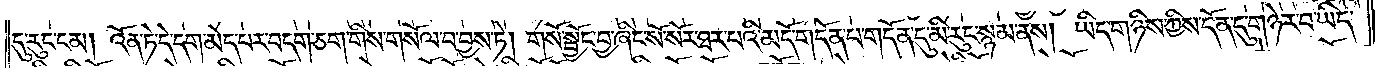དུ་རུང་ངམ། འོན་ཏེ་དེ་དག་མེད་པར་བདག་ཅག་གིས་གསོལ་བ་བྱས་ཏེ། གསོ་སྦྱོང་བྱ་ཞིང་སོ་སོར་ཐར་པའི་མདོ་གདོན་པ་གདོན་དུ་མི་རུང་སྙམ་ནས། ཡིད་གཉིས་ཀྱིས་དོན་དུ་གཉེར་བ་ཡིད་
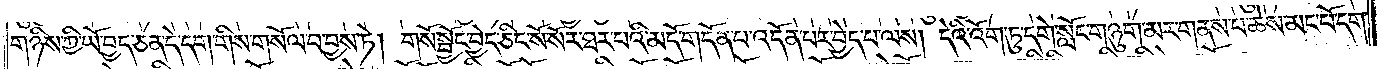གཉིས་ཀྱི་ཡོ་བྱད་ཅན་དེ་དག་གིས་གསོལ་བ་བྱས་ཏེ། གསོ་སྦྱོང་བྱེད་ཅིང་སོ་སོར་ཐར་པའི་མདོ་གདོན་པ་འདོན་པར་བྱེད་པ་ལས། དེའི་འོག་ཏུ་དགེ་སློང་གཉུག་མར་གནས་པ་ཆེས་མང་པོ་དག་
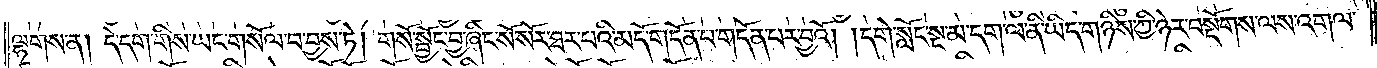ལྷགས་ན། དེ་དག་གིས་ཡང་གསོལ་བ་བྱས་ཏེ། གསོ་སྦྱོང་བྱ་ཞིང་སོ་སོར་ཐར་པའི་མདོ་གདོན་པ་གདོན་པར་བྱའོ། །དགེ་སློང་སྔ་མ་དག་ལ་ནི་ཡིད་གཉིས་ཀྱི་ཉེར་བསྔོགས་ལས་འགལ་
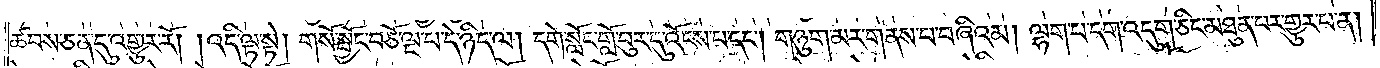ཚབས་ཅན་དུ་འགྱུར་རོ། །འདི་ལྟ་སྟེ། གསོ་སྦྱོང་བཅོ་ལྔ་པ་དེ་ཉིད་ལ། དགེ་སློང་གློ་བུར་དུ་འོངས་པ་དང༌། གཉུག་མར་གནས་པ་བཞིའམ། ལྷག་པ་དག་འདུག་ཅིང་མཐུན་པར་གྱུར་པ་ན།
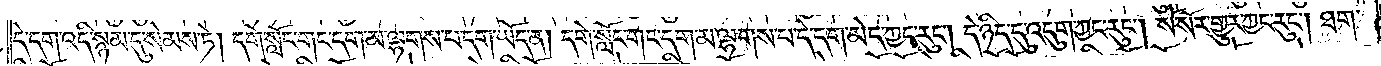དེ་དག་འདི་སྙམ་དུ་སེམས་ཏེ། དགེ་སློང་གང་དག་མ་ལྷགས་པ་དག་ཡོད་ན། དགེ་སློང་གང་དག་མ་ལྷགས་པ་དེ་དག་མེད་ཀྱང་རུང༌། དེ་ཉིད་དུ་འདུག་ཀྱང་རུང༌། སོ་སོར་གྱུར་ཀྱང་རུང༌། ཐག་
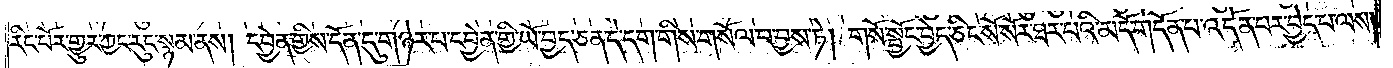རིང་པོར་གྱུར་ཀྱང་རུང་སྙམ་ནས། དབྱེན་གྱིས་དོན་དུ་གཉེར་པ་དབྱེན་གྱི་ཡོ་བྱད་ཅན་དེ་དག་གིས་གསོལ་བ་བྱས་ཏེ། གསོ་སྦྱོང་བྱེད་ཅིང་སོ་སོར་ཐར་པའི་མདོ་གདོན་པ་འདོན་པར་བྱེད་པ་ལས།
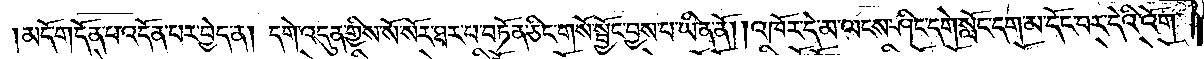མདོ་གདོན་པ་འདོན་པར་བྱེད་ན། དགེ་འདུན་གྱིས་སོ་སོར་ཐར་པ་བཏོན་ཅིང་གསོ་སྦྱོང་བྱས་པ་ཡིན་ནོ། །འཁོར་དེ་མ་ལངས་ཤིང་དགེ་སློང་དག་མ་དོང་བར་དེའི་འོག་
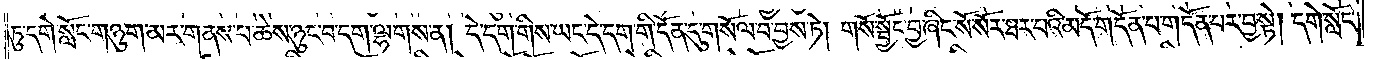ཏུ་དགེ་སློང་གཉུག་མར་གནས་པ་ཆེས་ཉུང་བ་དག་ལྷགས་ན། དེ་དག་གིས་ཡང་དེ་དག་གི་དོན་དུ་གསོལ་བ་བྱས་ཏེ། གསོ་སྦྱོང་བྱ་ཞིང་སོ་སོར་ཐར་པའི་མདོ་གདོན་པ་གདོན་པར་བྱ་སྟེ། དགེ་སློང་
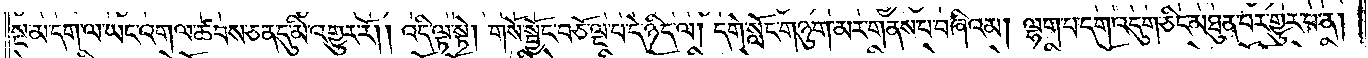སྔ་མ་དག་ལ་ཡང་འགལ་ཚབས་ཅན་དུ་མི་འགྱུར་རོ། །འདི་ལྟ་སྟེ། གསོ་སྦྱོང་བཅོ་ལྔ་པ་དེ་ཉིད་ལ། དགེ་སློང་གཉུག་མར་གནས་པ་བཞིའམ། ལྷག་པ་དག་འདུག་ཅིང་མཐུན་པར་གྱུར་པ་ན།
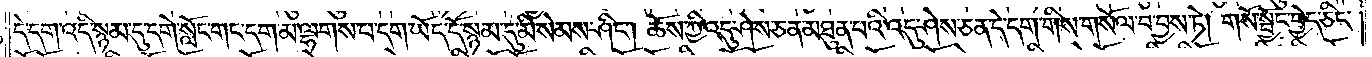དེ་དག་འདི་སྙམ་དུ་དགེ་སློང་གང་དག་མ་ལྷགས་པ་དག་ཡོད་དོ་སྙམ་དུ་མི་སེམས་ཤིང༌། ཆོས་ཀྱི་འདུ་ཤེས་ཅན་མཐུན་པའི་འདུ་ཤེས་ཅན་དེ་དག་གིས་གསོལ་བ་བྱས་ཏེ། གསོ་སྦྱོང་བྱེད་ཅིང་
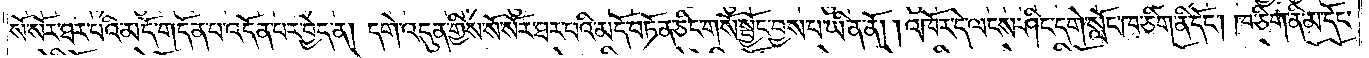སོ་སོར་ཐར་པའི་མདོ་གདོན་པ་འདོན་པར་བྱེད་ན། དགེ་འདུན་གྱིས་སོ་སོར་ཐར་པའི་མདོ་བཏོན་ཅིང་གསོ་སྦྱོང་བྱས་པ་ཡིན་ནོ། །འཁོར་དེ་ལངས་ཤིང་དགེ་སློང་ཁ་ཅིག་ནི་དོང༌། ཁ་ཅིག་ནི་མ་དོང་
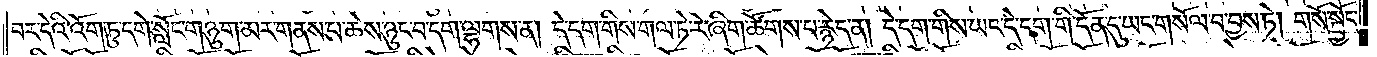བར་དེའི་འོག་ཏུ་དགེ་སློང་གཉུག་མར་གནས་པ་ཆེས་ཉུང་བ་དག་ལྷགས་ན། དེ་དག་གིས་གལ་ཏེ་རེ་ཞིག་ཚོགས་པ་རྙེད་ན། དེ་དག་གིས་ཡང་དེ་དག་གི་དོན་དུ་ཡང་གསོལ་བ་བྱས་ཏེ། གསོ་སྦྱོང་
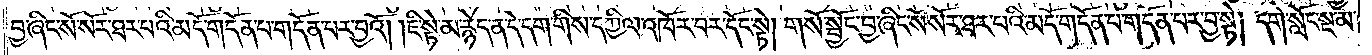བྱ་ཞིང་སོ་སོར་ཐར་པའི་མདོ་གདོན་པ་གདོན་པར་བྱའོ། །ཇི་སྟེ་མ་རྙེད་ན་དེ་དག་གིས་དཀྱིལ་འཁོར་བར་དོང་སྟེ། གསོ་སྦྱོང་བྱ་ཞིང་སོ་སོར་ཐར་པའི་མདོ་གདོན་པ་གདོན་པར་བྱ་སྟེ། དགེ་སློང་སྔ་མ་
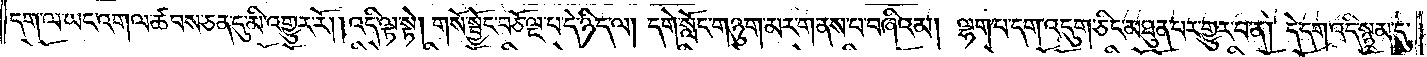དག་ལ་ཡང་འགལ་ཚབས་ཅན་དུ་མི་འགྱུར་རོ། །འདི་ལྟ་སྟེ། གསོ་སྦྱོང་བཅོ་ལྔ་པ་དེ་ཉིད་ལ། དགེ་སློང་གཉུག་མར་གནས་པ་བཞིའམ། ལྷག་པ་དག་འདུག་ཅིང་མཐུན་པར་གྱུར་པ་ན། དེ་དག་འདི་སྙམ་དུ་
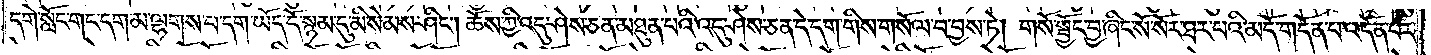དགེ་སློང་གང་དག་མ་ལྷགས་པ་དག་ཡོད་དོ་སྙམ་དུ་མི་སེམས་ཤིང༌། ཆོས་ཀྱི་འདུ་ཤེས་ཅན་མཐུན་པའི་འདུ་ཤེས་ཅན་དེ་དག་གིས་གསོལ་བ་བྱས་ཏེ། གསོ་སྦྱོང་བྱ་ཞིང་སོ་སོར་ཐར་པའི་མདོ་གདོན་པ་འདོན་པར་
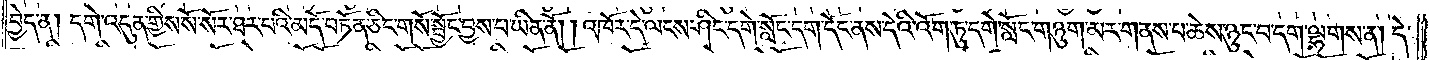བྱེད་ན། དགེ་འདུན་གྱིས་སོ་སོར་ཐར་པའི་མདོ་བཏོན་ཅིང་གསོ་སྦྱོང་བྱས་པ་ཡིན་ནོ། །འཁོར་དེ་ལངས་ཤིང་དགེ་སློང་དག་དོང་ནས་དེའི་འོག་ཏུ་དགེ་སློང་གཉུག་མར་གནས་པ་ཆེས་ཉུང་བ་དག་ལྷགས་ན། དེ་
